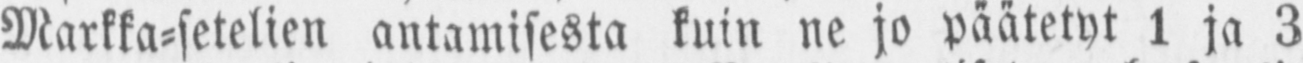Markka-setelien antamisesta kuin ne jo päätetyt 1 ja 3
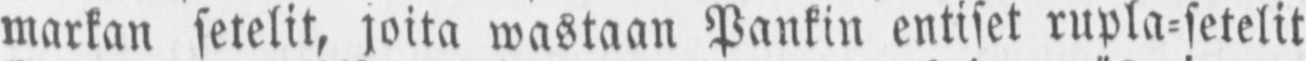markan setelit, joita wastaan Pankin entiset rupla-setelit
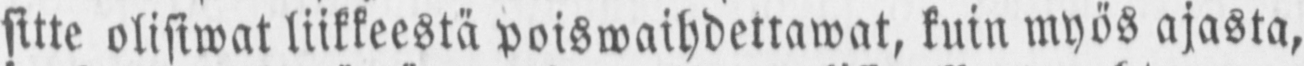sitte olisiwat liikkeestä poiswaihdettawat, kuin myös ajasta,
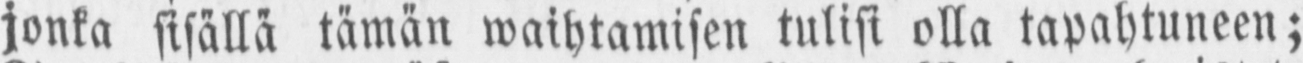jonka sisällä tämän waihtamisen tulisi olla tapahtuneen;
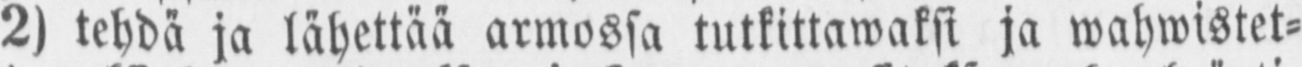2) tehdä ja lähettää armossa tutkittawaksi ja wahwistet-
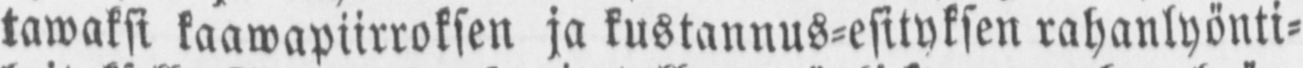tawaksi kaawapiirroksen ja kustannus-esityksen rahanlyönti-
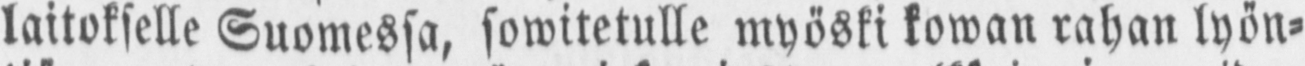laitokselle Suomessa, sowitetulle myöski kowan rahan lyön-
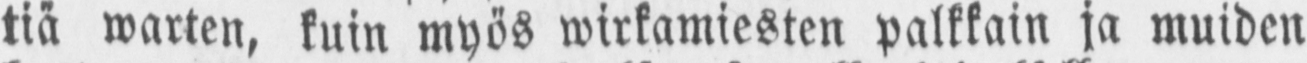tiä warten, kuin myös wirkamiesten palkkain ja muiden
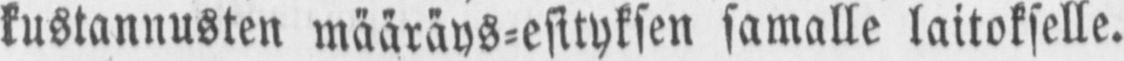kustannusten määräys-esityksen samalle laitokselle.
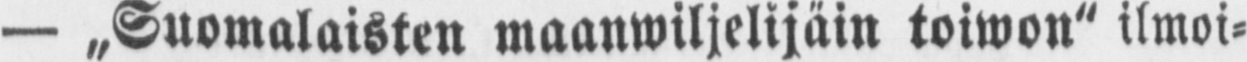— „Suomalaisten maanwiljelijäin toiwon" ilmoi-
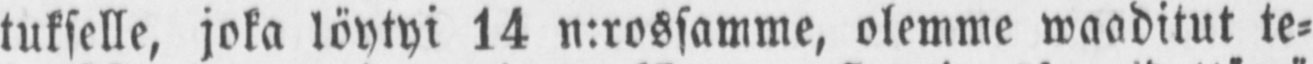tukselle, joka löytyi 14 n:rossamme, olemme waaditut te-
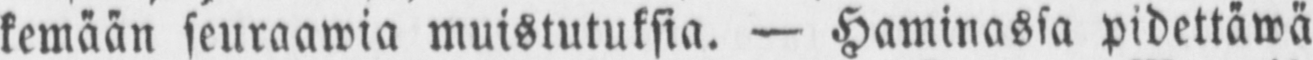kemään seuraawia muistutuksia. — Haminassa pidettäwä
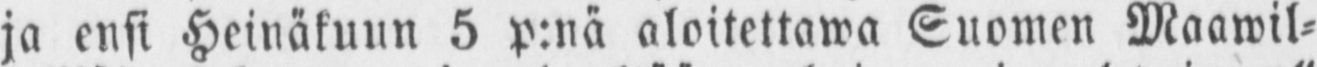ja ensi Heinäkuun 5 p:nä aloitettawa Suomen Maawil-
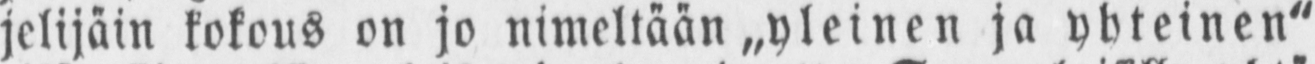jelijäin kokous on jo nimeltään „yleinen ja yhteinen"
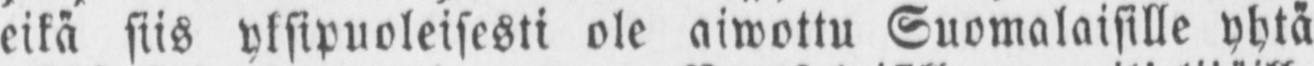eikä siis yksipuoleisesti ole aiwottu Suomalaisille yhtä
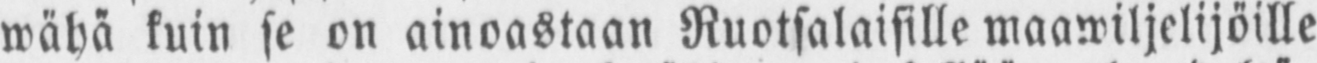wähä kuin se on ainoastaan Ruotsalaisille maawiljelijöille
